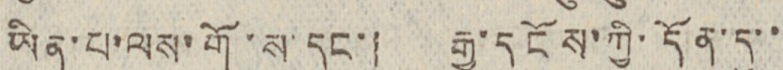ཡིན་པ་ལས་གོ་ས་དང་། རྒྱུ་དངོས་ཀྱི་དོན་དུ་་
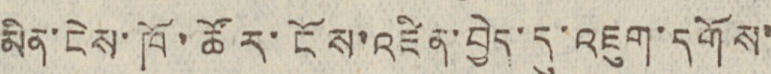མིན་ངེས་ཁོ་ཚོར་ངོས་འཛིན་བྱེད་དུ་འཇུག་དགོས་
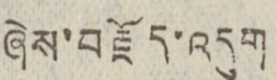ཞེས་བརྗོད་འདུག
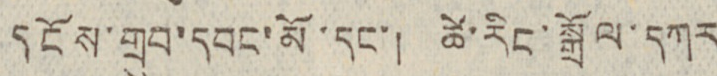དངོས་གྲུབ་དབང་མོ་དང་། ཚེ་རིང་སྒྲོལ་དཀར
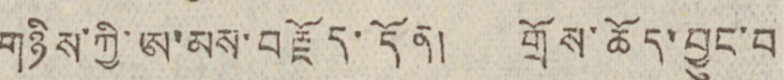གཉིས་ཀྱི་ཨ་མས་བརྗོད་དོན། གྲོས་ཆོད་བྱུང་བ
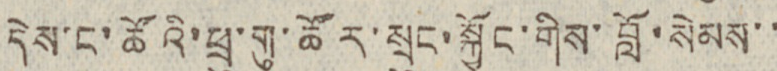དེས་ང་ཚོའི་ཕྲུ་གུ་ཚོར་སྲུང་སྐྱོང་གིས་བློ་སེམས་་
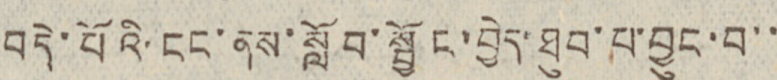བདེ་པོའི་ངང་ནས་སློབ་སྦྱོང་བྱེད་ཐུབ་པ་བྱུང་བ་་
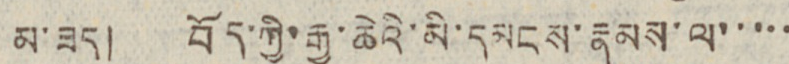མ་ཟད། བོད་ཀྱི་རྒྱ་ཆེའི་མི་དམངས་རྣམས་ལ་་་་་
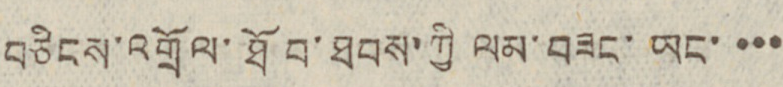བཅིངས་འགྲོལ་ཐོབ་ཐབས་ཀྱི ལམ་བཟང་ཡང་་་་
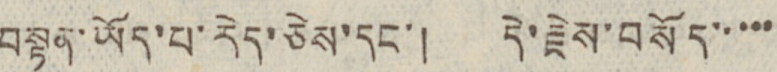བསྟན་ཡོད་པ་རེད་ཅེས་དང་། དེ་རྗེས་བསོད་་་་་
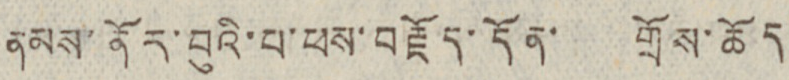ནམས་ནོར་བུའི་པ་ཕས་བརྗོད་དོན་ གྲོས་ཆོད
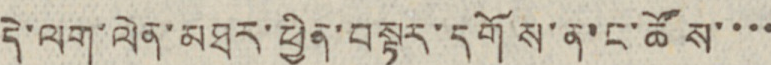དེ་ལག་ལེན་མཐར་ཕྱིན་བསྟར་དགོས་ན་ང་ཚོས་་་་
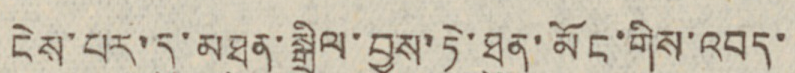ངེས་པར་དུ་མཐུན་སྒྲིལ་བྱས་ཏེ་ཐུན་མོང་གིས་འབད་
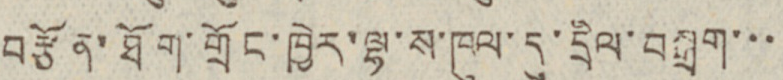བརྩོན་ཐོག་གྲོང་ཁྱེར་ལྷ་ས་ཁུལ་དུ་དྲིལ་བསྒྲག་་་
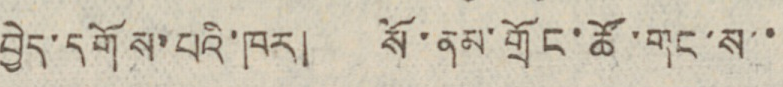བྱེད་དགོས་པའི་ཁར། སོ་ནམ་གྲོང་ཚོ་གང་ས་་
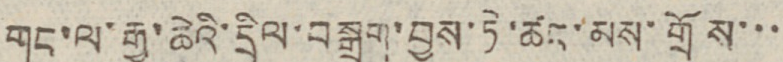གང་ལ་རྒྱ་ཆེའི་དྲིལ་བསྒྲག་བྱས་ཏེ་ཚང་མས་གྲོས་་་
